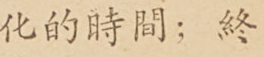化的時間；終
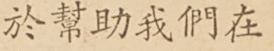於幫助我們在
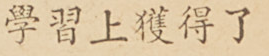學習上獲得了
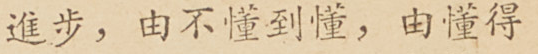進步，由不懂到懂，由懂得
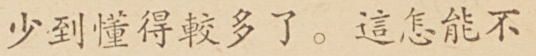少到懂得較多了。這怎能不
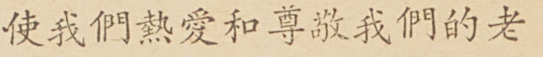使我們熱愛和尊敬我們的老
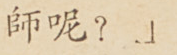師呢？」
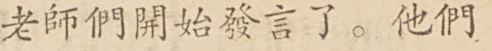老師們開始發言了。他們
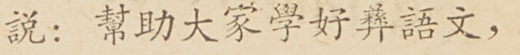說：幫助大家學好彝語文，
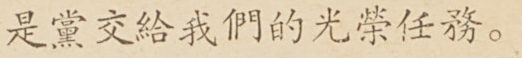是黨教給我們的光榮任務。
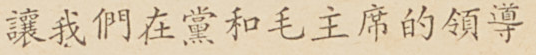讓我們在黨和毛主席的領導
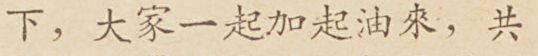下，大家一起加起油來，共
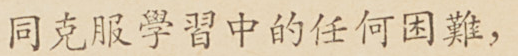同克服學習中的任何困難，
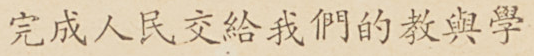完成人民交給我們的教與學
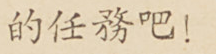的任務吧！
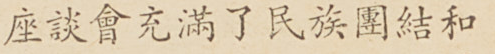座談會充滿了民族團結和
